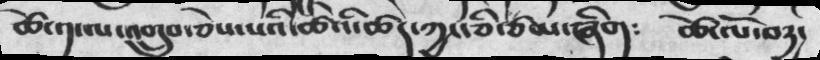ཚེ་༡་ལ་འགྲུབ་ཅེས་པའི་ཚེའི་ཚད་ཀྱང་ཅི་ཙམ་ཞིག༴  ཚེ་ལོ་བདྱ་
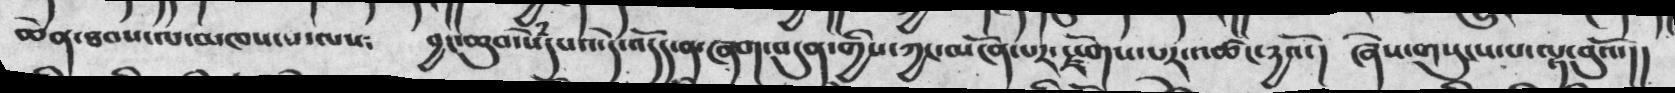ཆེན་ཐབས་ལ་མཁས་པ་ལས༴  བྱང་ཆུབ་སེཾདཔའ་དེ་འདོད་ན་ཞག་བདུན་གྱིས་ཀྱང་མངོན་པར་རྫོགས་པར་འཚང་དྱའོ་།  ཞེས་གསུངས་ལྟ་བུའོ་།།
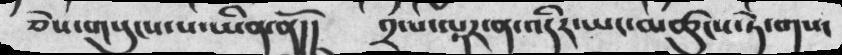ཅེས་གསུངས་པ་ཡིན་ནོ།།   ༢་པ་ལྟར་ན་འདིར་ཡང་མཚུངས་ཏེ་གསང
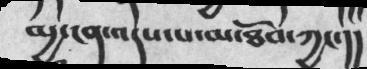མྱ་ངན་འདས་པ་མ་ཐོབ་ཀྱང་།།
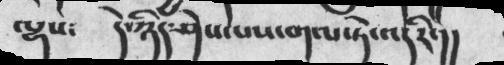ལྷས༴   དེ་ཉིད་ཤེས་པས་གལ་ཏེ་འདིར་།།
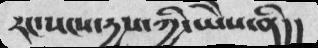རང་སངས་རྒྱས་ཀྱི་ཡེེས་ནི།།
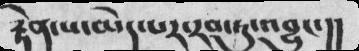རྟེན་པ་མེད་པར་རབ་ཏུ་འབྱུང་།།
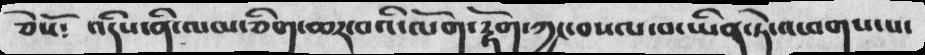ཅེསོ༴  འདིས་ནི་ལམ་ཅིག་ཆར་བའི་ལོག་རྟོག་ཀྱང་བསལ་ཡིན་ཏེ་འཕགས་པ་
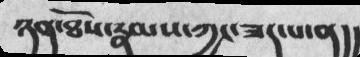ཉན་ཐོས་རྣམས་ཀྱང་ཟད་པ་ན།།
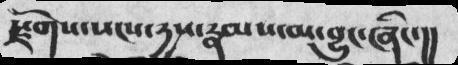རྫོགས་སངས་དྱས་རྣམས་མ་བྱུང་ཞིང་།།
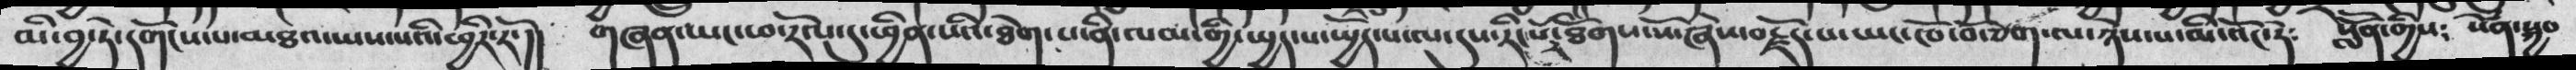མི་བྱ་ཏེ་དགོངས་པ་མཐའ་ཡས་པའི་ཕྱིར་རོ་།།  གཞན་ཡང་ཕ་རོལ་དུ་ཕྱིན་པའི་ཐེག་པ་ནི་ལམ་གྱི་སྤྱད་པ་སྤྱོད་པ་ལ་དུས་རིང་པོ་ཐོགས་སོ་ཞེས་བརྗོད་པ་ཡང་ཁོ་བོ་ཅག་ལ་ཉེས་པ་མི་འོང་ཏེ༴  སློོན་གྱིས༴  སེཾན་སྐྱབ
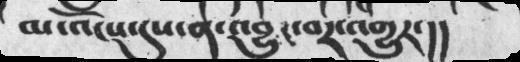མ་འོངས་དུས་ན་འབྱུང་བར་འགྱུར་།།
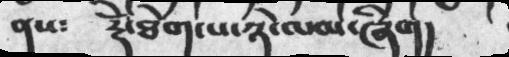ནས༴  རྡོེ་ཐེག་པ་ ཉེ་ལམ་ཞིག།
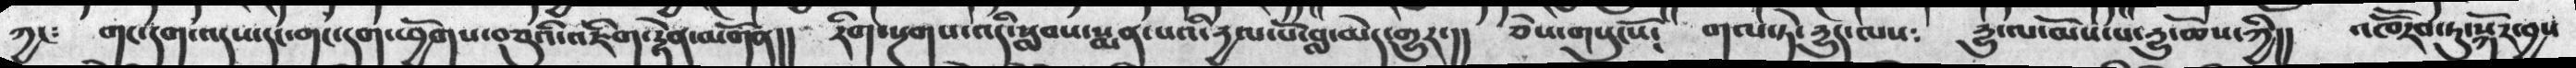ཀྱང༴  གང་དག་འདས་དང་གང་དག་ཕྱོགས་བཅུའི་འཇིག་རྟེན་མགོན།།  རིག་སྔགས་འདི་སླབས་སྨན་པའི་དྱལ་པོ་བླ་མེད་གྱུར་།།  ཅེས་གསུངསོ༴  གལ་ཏེ་རྱུད་ལས༴  རྱུ་ལ་མོས་པ་རྱུ་ཆོས་ཀྱི།།  འཁོོརབ་ཏུ་སྐོར་བྱས
